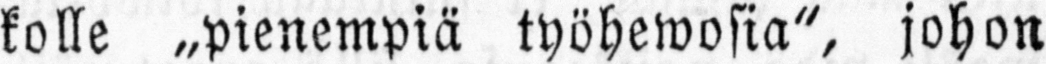kolle „pienempiä työhewosia", johon
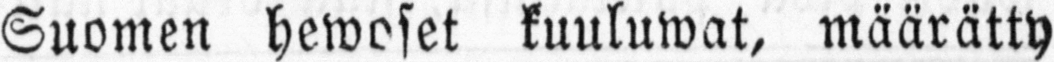Suomen hewoset kuuluwat, määrätty
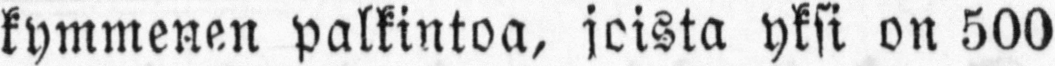kymmenen palkintoa, joista yksi on 500
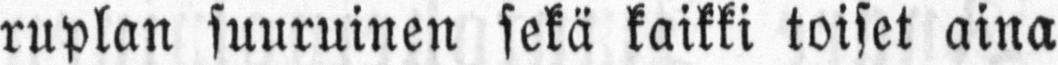ruplan suuruinen sekä kaikki toiset aina
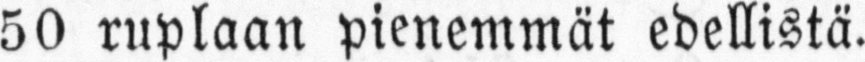50 ruplaan pienemmät edellistä.
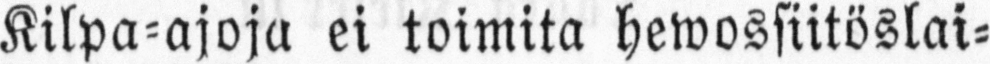Kilpa-ajoja ei toimita hewossiitöslai-
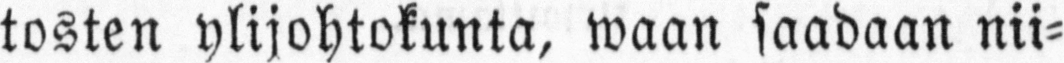tosten ylijohtokunta, waan saadaan nii-
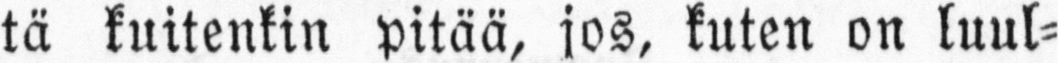tä kuitenkin pitää, jos, kuten on kuul-
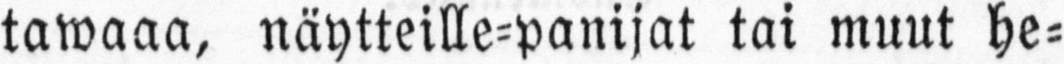tawaan, näytteille-panijat tai muut he-
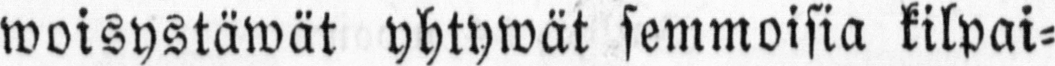woisystäwät yhtywät semmoisia kilpai-
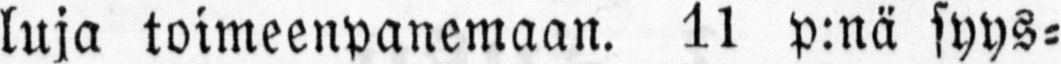luja toimeenpanemaan. 11 p:nä syys-
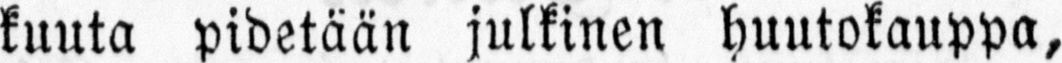kuuta pidetään julkinen huutokauppa,
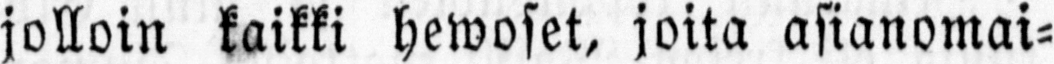jolloin kaikki hewoset, joita asianomai-
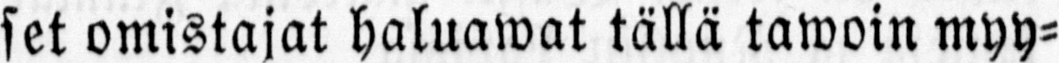set omistajat haluawat tällä tawoin myy-
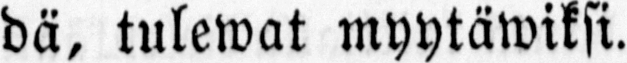dä, tulewat myytäwiksi.
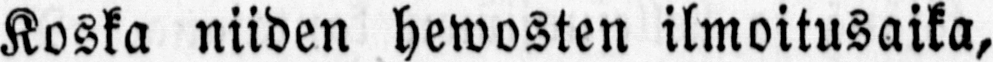Koska niiden hewosten ilmoitusaika,
